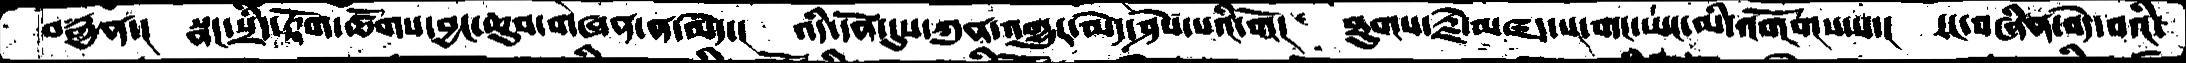བརྒྱན་།  སྣང་སྲིད་རྟོག་ཚོགས་བྱང་ཆུབ་གཞན་ན་མེད་།  འདི་དོན་དུས་ཀུན་འགྱུར་མེད་ཤེས་པའི་གོ།  ཐུགས་རྗེ་མཛད་པ་གང་ཡང་མི་འགོགས་པས་།  རང་བཞིན་བདེ་བའི་
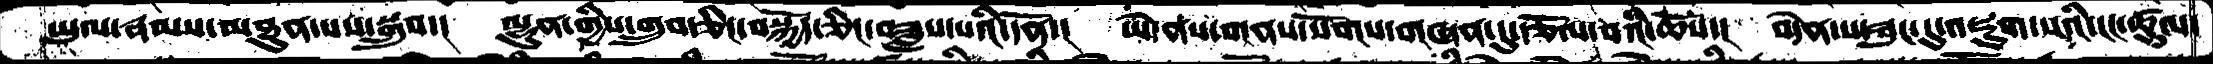ཡུལ་རྣམས་མཐུན་པས་སྒྲུབ་།  ལྷུན་གྱིས་གྲུབ་ཅིང་བསྐྱོད་ཅིང་བཟླས་པའི་དོན་།  ཡེ་ནས་གནས་སོགས་གཞན་དུ་རྩོལ་བའི་ཆོས་།  བདེན་པ་ཟུང་དུ་འཇུག་པའི་ངང་ཚུལ་
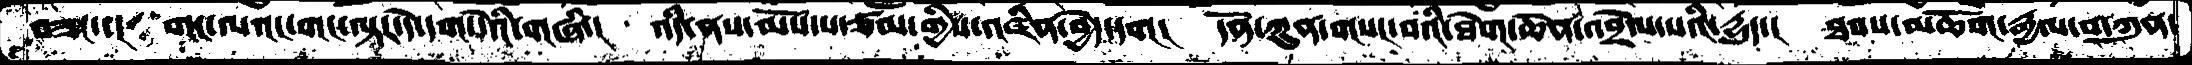བཟང་་།  གང་ལའང་གང་ལྟར་དེ་དག་དེའི་གཞི་།  འདི་ནས་མོས་པ་ཙམ་གྱིས་འཛིན་བྱེད་དག།  དོན་ཀུན་གསང་བའི་ཐེག་ཆེན་འབྲེལ་པའི་དྱུད་། ཐབས་མཆོག་རྒྱལ་བ་ཀུན་
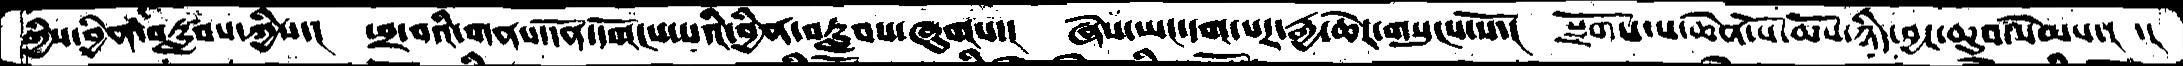གྱིས་བྱིན་བརླབས་ཀྱིས་།  ཕྲ་བའི་གནས་དོན་དགོངས་པའི་བྱིན་བརླབས་ཞུགས་།  ཞེས་ཡང་དག་པར་རྒྱ་ཆེར་གསུངས་སོ་།  སྫོགས་པ་ཆེན་པོ་ཆོས་ཉིད་བྱང་ཆུབ་སེམས་།  ་།།
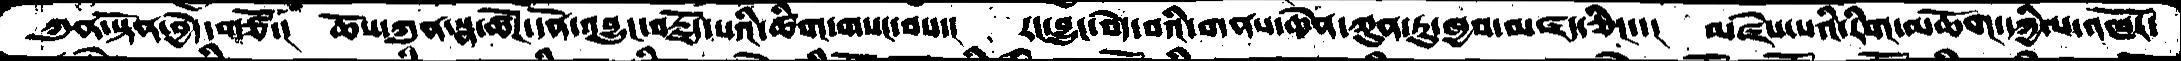ཀུན་སྟོན་བྱེད་གཙོ་།  ཆོས་ཀུན་སྣ་ཚོཌ་དོན་འབྱུང་བརྗོད་པའི་ཚིག་གསང་བས་།  རང་བྱུང་བདེ་བའི་གནས་ཆེན་ཀུན་ཏུ་ཁྱབ་མཛད་ཅིང་་།  མཛེས་པའི་རིག་མཆོག་དཀྱིལ་འཁོར་
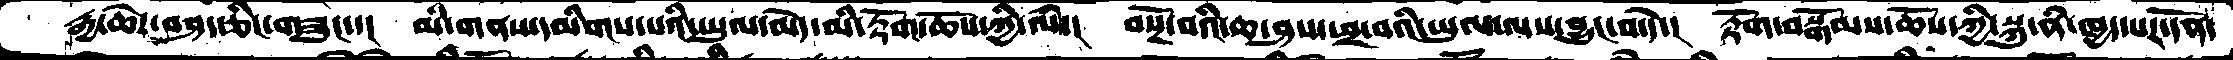རྒྱ་ཆེར་བཤད་ཅིང་གཟུང་་།  མི་གནས་དམིགས་པའི་ཡུལ་མེད་མི་རྟོག་ཆོས་ཀྱི་ལཾ་།  བསྔོ་བའི་ཆ་ཤས་ཕྲ་བའི་ཡུལ་ལས་བྱུང་བ་དེ་།  རྟོག་བསྒོམས་ཆོས་ཀྱི་སྐུ་ནི་ཁྱད་པར་དོན་
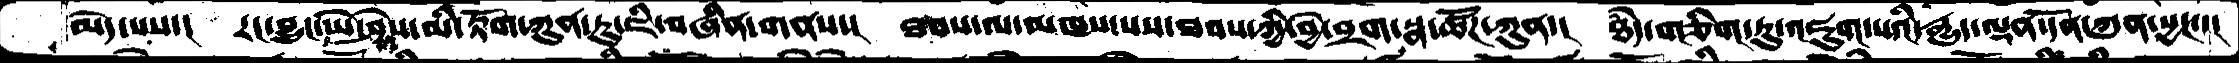མེད་པས་།  རང་བྱུང་ཡེ་ཤེས་མི་རྟོག་ཀུན་ཏུ་ཇི་བཞིན་གནས་།  ཐབས་ལ་མཁས་པས་ཐབས་ཀྱི་བྱེ་བྲག་སྣ་ཚོཌ་ཀུན་།  ཐདཾ་གཅིག་ཏུ་འཇུག་པའི་རྒྱུད་ལྡན་དོན་ཀུན་སྱང་་།
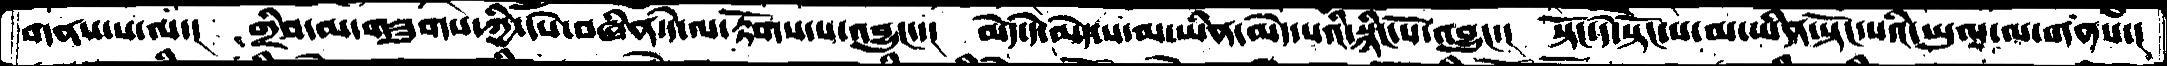གནས་པ་ལ་།  གྲིབ་མ་གཟུགས་ཀྱི་དཔེ་བཞིན་དེ་ལ་རྟོགས་པ་འབྱུང་་།  མེད་དེ་མེད་པ་མ་ཡིན་མེད་པའི་སྙིང་པོ་འབྱུང་།  སྟོང་དེ་སྟོང་པ་མ་ཡིན་སྟོང་པའི་ཡུལ་ལ་གནས་།
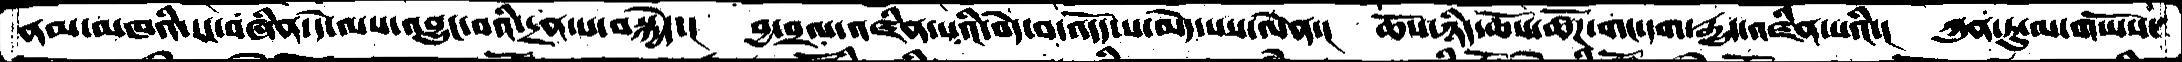ནམ་མཁའི་རང་བཞིན་དེ་ལས་འབྱུང་བའི་དྲན་པ་བསྐྱེད་།  བྱ་བྲལ་འཛིན་པའི་བདེ་བ་འདོད་པ་མེད་པས་ལེན་།  ཆོས་ཉིད་ཆོས་ཚོཌ་གང་དག་རྒྱུད་འཛིན་པའི་།  ཀུན་ཏུ་མ་གཡོས་
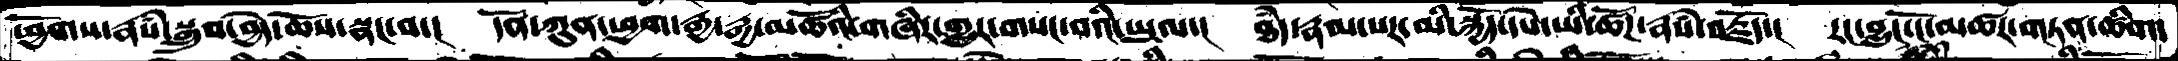ཕྱོགས་རྣཾས་སྒྲུབ་བྱེད་ཆོས་སྣང་བ་།  དོན་ཀུན་ཕྱག་རྒྱ་རྒྱ་མཚོའི་གཞིར་གྱུར་གསང་བའི་ཡུལ་།  ཐདཾ་རྣམ་པར་མི་སྐྱོད་དཔེ་ཡི་ཚོཌ་རྣཾས་བརྗོད་།  རང་བྱུང་ངོ་མཚར་གཏན་ཚིག་
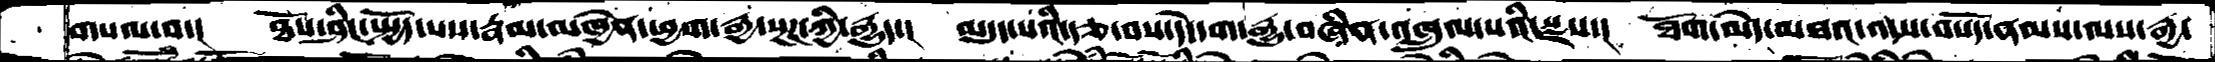གསལ་བ་།  ཐོས་ཤིང་སྤྱོད་པས་རྣམ་མཁྱེན་ཕྱག་རྒྱ་སྔཌ་ཀྱི་རྒྱུད་།  མདུད་པའི་རྩ་བས་དེ་དག་རྒྱུ་བཞིན་འཁྲུལ་པའི་སྫས་།  ཐོག་མེད་མཐའ་འདས་བསོད་ནམས་ལས་རྒྱ་
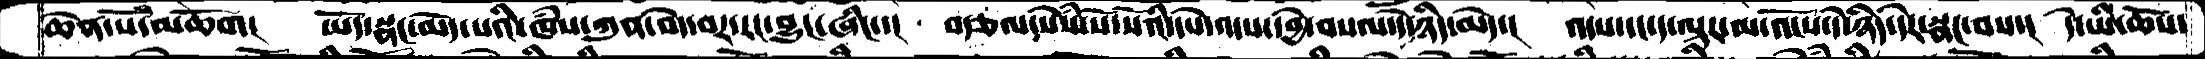ཆེན་པོ་མཆོག།   ཡོད་སྣང་མེད་པའི་ཁཾས་ཀུན་བདེ་བར་རང་བྱུང་ཞིང་།   བརྩལ་སེཾས་སོ་སོའི་དཔེ་འདས་དབྱེ་བསལ་དེ་ཉིད་མེད་།   འདས་དང་ད་ལྟར་མ་འོངས་དེ་ཉིད་དེར་སྣང་བས་།  དེ་ཡི་ཆོས་
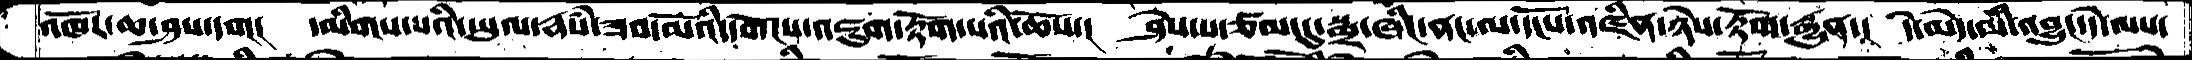འཁོར་ཆ་ཤས་དག།   དམིགས་པའི་ཡུལ་རྣཾས་ཟབ་མོའི་དགོངས་འཇུག་རྟོག་པའི་ཆོས་།  ཤེས་པ་ཙམ་དུ་སྨྲ་ཞིང་ནང་ལ་དངོས་འཛིན་ཉེས་རྟོག་རྒྱུན་།  དེ་མེད་མི་འབྱུང་དེ་ལས་
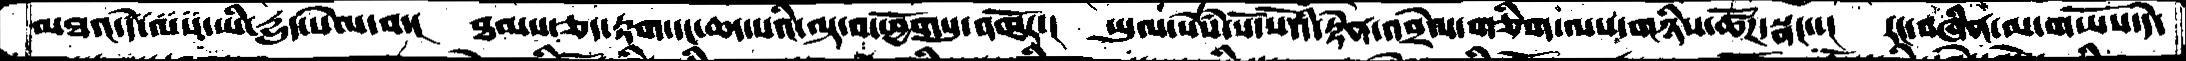མཐའ་དེ་ལས་ཡི་དྱུད་སེལ་བ་།  ཐམས་ཅད་རྟག་དང་ཆད་པའི་ལྟ་བ་ཕྱོགསུ་འཁོར་།   ཡུལ་སེཾས་སོ་སོའི་རྟེན་འབྲེལ་གཅིག་ལས་གཉིས་ཚོཌ་སྣང་་།  རང་བཞིན་མ་གཡོས་དེ་
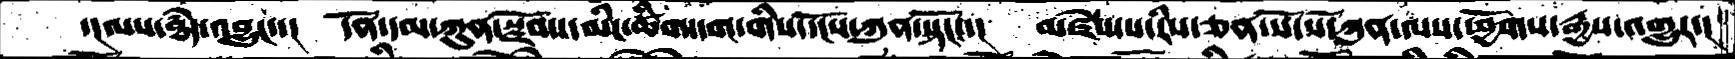་།ལས་ཐདཾ་འབྱུང་་།  དོན་དམ་ཀུན་སྫོབས་མིང་ཚིག་དག་གིས་དངོས་ཀུན་སྟོང་་།  མཛེས་པ་རིས་ཅན་སོ་སོ་ཀུན་ལས་ཕྱོགས་རྒྱས་འགྱུར་།
